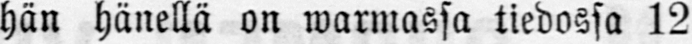hän hänellä on warmassa tiedossa 12
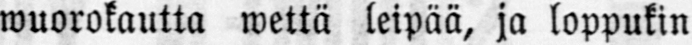wuorokautta wettä leipää, ja loppukin
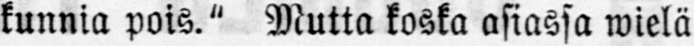kunnia pois?" Mutta koska asiassa wielä
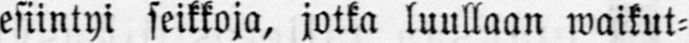esiintyi seikkoja, jotka luullaan waikut-
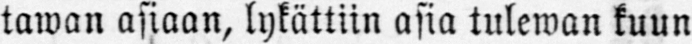tawan asiaan, lykättiin asia tulewan kuun
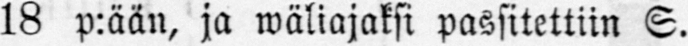18 p:ään, ja wäliajaksi passitettiin S.
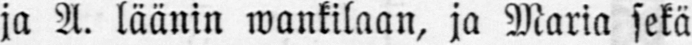ja A. läänin wantilaan, ja Maria sekä
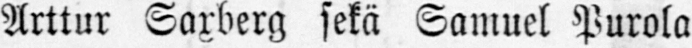Arttur Saxberg sekä Samuel Purola
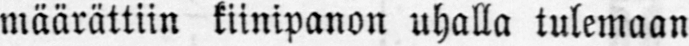määrättiin kiinipanon uhalla tulemaan
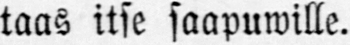taas itse saapuwille.
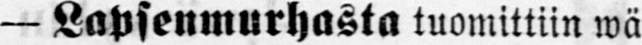— Lapsenmurhasta tuomittiin wä-
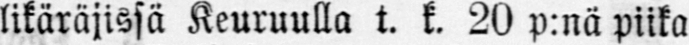likäräjissä Keuruulla t. k. 20 p:nä piika
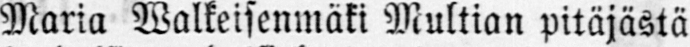Maria Walkeisenmäki Multian pitäjästä
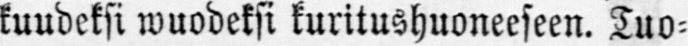kuudeksi wuodeksi kuritushuoneeseen. Tuo-
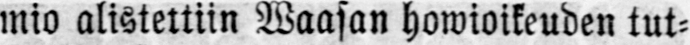mio alistettiin Wassan howioikeuden tut-
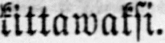kittawaksi.
